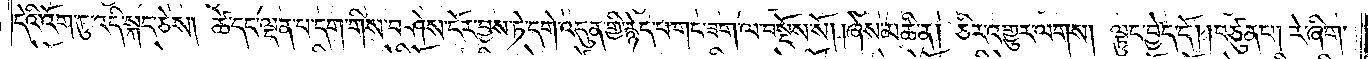དེའི་འོག་ཏུ་འདི་སྐད་ཅེས། ཚེ་དང་ལྡན་པ་དག་གིས་བཤེས་ངོར་བྱས་ཏེ་དགེ་འདུན་གྱི་རྙེད་པ་གང་ཟག་ལ་བསྔོས་སོ། །ཞེས་མཆི་ན། ཅིར་འགྱུར་ལགས། ལྟུང་བྱེད་དོ། །བཙུན་པ། རེ་ཞིག་
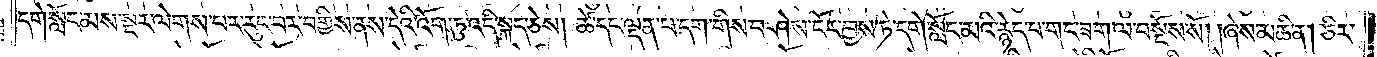དགེ་སློང་མས་སྔར་ལེགས་པར་རུང་བར་བགྱིས་ནས་དེའི་འོག་ཏུ་འདི་སྐད་ཅེས། ཚེ་དང་ལྡན་པ་དག་གིས་བཤེས་ངོར་བྱས་ཏེ་དགེ་སློང་མའི་རྙེད་པ་གང་ཟག་ལ་བསྔོས་སོ། །ཞེས་མཆི་ན། ཅིར་
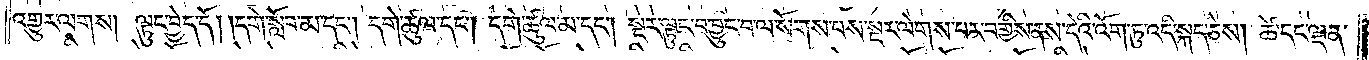འགྱུར་ལགས། ལྟུང་བྱེད་དོ། །དགེ་སློབ་མ་དང༌། དགེ་ཚུལ་དང༌། དགེ་ཚུལ་མ་དང༌། སྔར་ལྟུང་བ་བྱུང་བ་ལ་སོགས་པས་སྔར་ལེགས་པར་བགྱིས་ནས་དེའི་འོག་ཏུ་འདི་སྐད་ཅེས། ཚེ་དང་ལྡན་
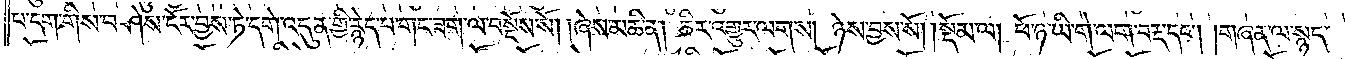པ་དག་གིས་བཤེས་ངོར་བྱས་ཏེ་དགེ་འདུན་གྱི་རྙེད་པ་གང་ཟག་ལ་བསྔོས་སོ། །ཞེས་མཆི་ན། ཅིར་འགྱུར་ལགས། ཉེས་བྱས་སོ།    །སྡོམ་ལ། ཕོ་ཉ་ཡི་གེ་ལག་བརྡ་དང༌། །གཞན་ལ་སྙད་
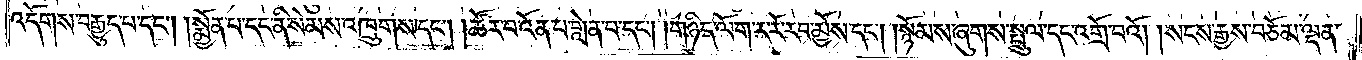འདོགས་བརྒྱུད་པ་དང༌། །སྨྱོན་པ་དང་ནི་སེམས་འཁྲུགས་དང༌། །ཚོར་བ་འོན་པ་གླེན་པ་དང༌། །གཉིད་ལོག་ར་རོ་རབ་མྱོས་དང༌། །སྙོམས་ཞུགས་སྤྲུལ་དང་འགྲོ་བའོ། །སངས་རྒྱས་བཅོམ་ལྡན་
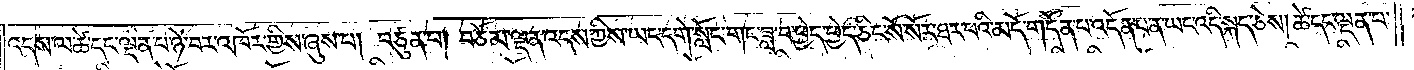འདས་ལ་ཚེ་དང་ལྡན་པ་ཉེ་བར་འཁོར་གྱིས་ཞུས་པ། བཙུན་པ། བཅོམ་ལྡན་འདས་ཀྱིས་ཡང་དགེ་སློང་གང་ཟླ་བ་ཕྱེད་ཕྱེད་ཅིང་སོ་སོར་ཐར་པའི་མདོ་གདོན་པ་འདོན་པ་ན་ཡང་འདི་སྐད་ཅེས། ཚེ་དང་ལྡན་པ་
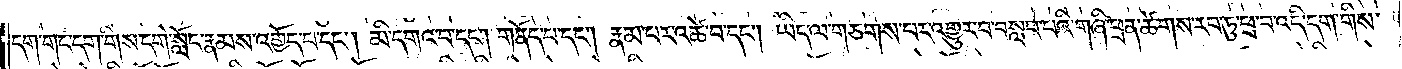དག་གང་དག་གིས་དགེ་སློང་རྣམས་འགྱོད་པ་དང༌། མི་དགའ་བ་དང༌། གནོད་པ་དང༌། རྣམ་པར་འཚེ་བ་དང༌། ཡིད་ལ་གཅགས་པར་འགྱུར་བ་བསླབ་པའི་གཞི་ཕྲན་ཚེགས་རབ་ཏུ་ཕྲ་བ་འདི་དག་གིས་
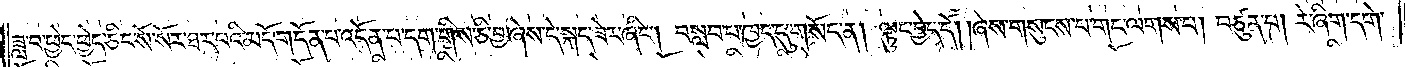ཟླ་བ་ཕྱེད་ཕྱེད་ཅིང་སོ་སོར་ཐར་པའི་མདོ་གདོན་པ་འདོན་པ་དག་གིས་ཅི་བྱ་ཞེས་དེ་སྐད་ཟེར་ཞིང༌། བསླབ་པ་ཁྱད་དུ་གསོད་ན། ལྟུང་བྱེད་དོ། །ཞེས་གསུངས་པ་གང་ལགས་པ། བཙུན་པ། རེ་ཞིག་དགེ་
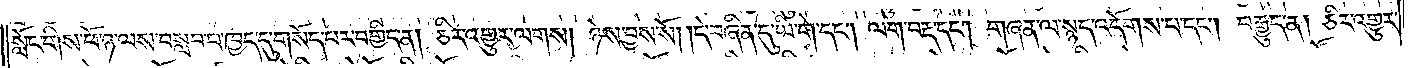སློང་གིས་ཕོ་ཉ་ལས་བསླབ་པ་ཁྱད་དུ་གསོད་པར་བགྱིད་ན། ཅིར་འགྱུར་ལགས། ཉེས་བྱས་སོ། །དེ་བཞིན་དུ་ཡི་གེ་དང༌། ལག་བརྡ་དང༌། གཞན་ལ་སྙད་འདོགས་པ་དང༌། བརྒྱུད་ན། ཅིར་འགྱུར་
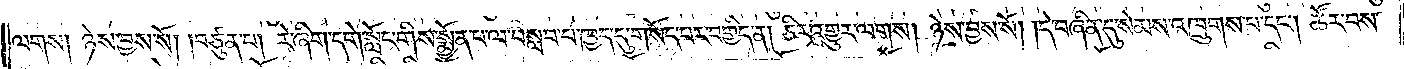ལགས། ཉེས་བྱས་སོ། །བཙུན་པ། རེ་ཞིག་དགེ་སློང་གིས་སྨྱོན་པ་ལ་བསླབ་པ་ཁྱད་དུ་གསོད་པར་བགྱིད་ན། ཅིར་འགྱུར་ལགས། ཉེས་བྱས་སོ། །དེ་བཞིན་དུ་སེམས་འཁྲུགས་པ་དང༌། ཚོར་བས་
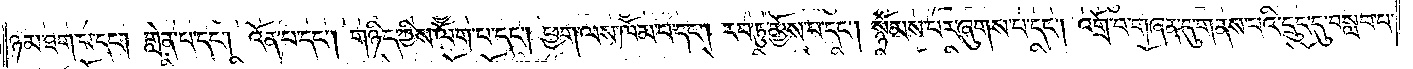ཉམ་ཐག་པ་དང༌། གླེན་པ་དང༌། འོན་པ་དང༌། གཉིད་ཀྱིས་ལོག་པ་དང༌། ཕྱག་ལས་ཁོམ་པ་དང༌། རབ་ཏུ་མྱོས་པ་དང༌། སྙོམས་པར་ཞུགས་པ་དང༌། འགྲོ་བ་གཞན་དུ་གནས་པའི་དྲུང་དུ་བསླབ་པ་
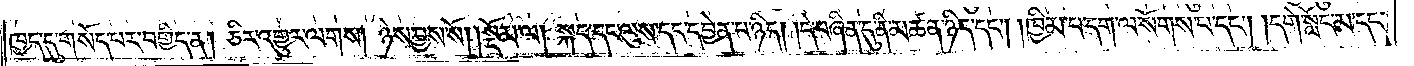ཁྱད་དུ་གསོད་པར་བགྱིད་ན། ཅིར་འགྱུར་ལགས། ཉེས་བྱས་སོ། །སྡོམ་ལ། སྐད་དང་ལུས་དང་དབྱེན་པ་ཉིད། །དེ་བཞིན་དུ་ནི་མཚན་ཉིད་དང༌། །ཁྱིམ་པ་དག་ལ་སོགས་པ་དང༌། །དགེ་སློང་མ་དང་
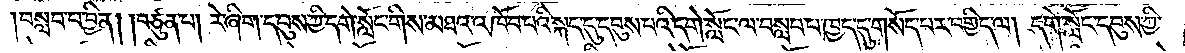བསླབ་པ་བྱིན། །བཙུན་པ། རེ་ཞིག་དབུས་ཀྱི་དགེ་སློང་གིས་མཐའ་འཁོབ་པའི་སྐད་དུ་དབུས་པའི་དགེ་སློང་ལ་བསླབ་པ་ཁྱད་དུ་གསོད་པར་བགྱིད་ལ། དགེ་སློང་དབུས་ཀྱི་
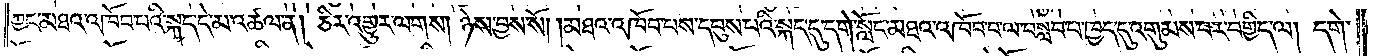ཀྱང་མཐའ་འཁོབ་པའི་སྐད་དེ་མ་འཚལ་ན། ཅིར་འགྱུར་ལགས། ཉེས་བྱས་སོ། །མཐའ་འཁོབ་པས་དབུས་པའི་སྐད་དུ་དགེ་སློང་མཐའ་འཁོབ་བ་ལ་བསླབ་པ་ཁྱད་དུ་འགུམས་པར་བགྱིད་ལ། དགེ་
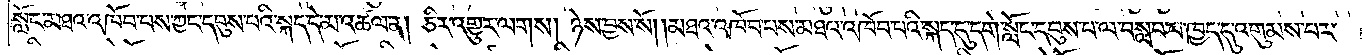སློང་མཐའ་འཁོབ་པས་ཀྱང་དབུས་པའི་སྐད་དེ་མ་འཚལ་ན། ཅིར་འགྱུར་ལགས། ཉེས་བྱས་སོ། །མཐའ་འཁོབ་པས་མཐའ་འཁོབ་པའི་སྐད་དུ་དགེ་སློང་དབུས་པ་ལ་བསླབ་པ་ཁྱད་དུ་འགུམས་པར་
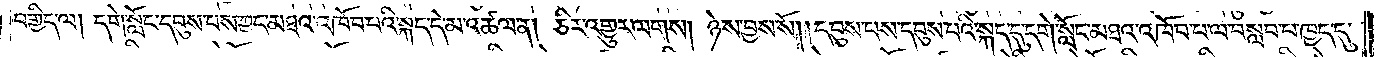བགྱིད་ལ། དགེ་སློང་དབུས་པས་ཀྱང་མཐའ་འཁོབ་པའི་སྐད་དེ་མ་འཚལ་ན། ཅིར་འགྱུར་ལགས། ཉེས་བྱས་སོ། །དབུས་པས་དབུས་པའི་སྐད་དུ་དགེ་སློང་མཐའ་འཁོབ་པ་ལ་བསླབ་པ་ཁྱད་དུ་
